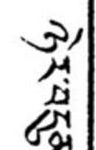ཉེར་བདུན་
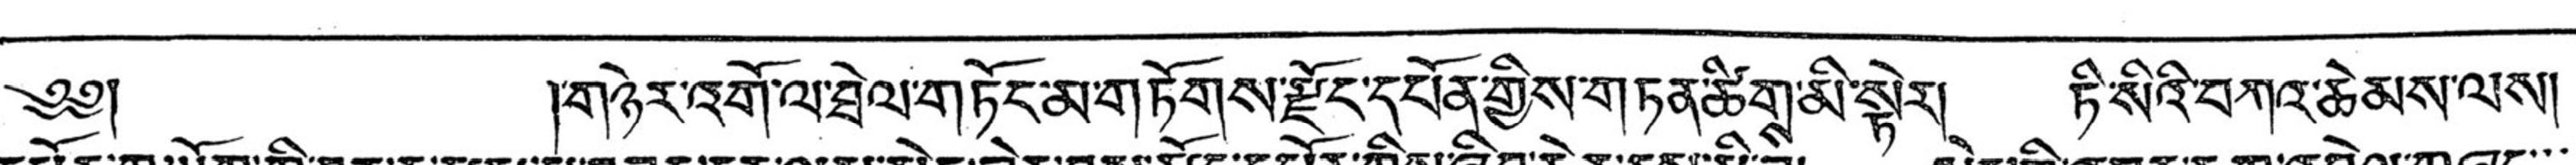༄༅།  །གཉེར་འགོ་ལ་ཐེལ་གཏོང་མ་གཏོགས་རྫོང་དཔོན་གྱིས་གཏན་ཚིགས་མི་སྟེར། ཏི་སིའི་བཀའ་ཆེམས་ལས།
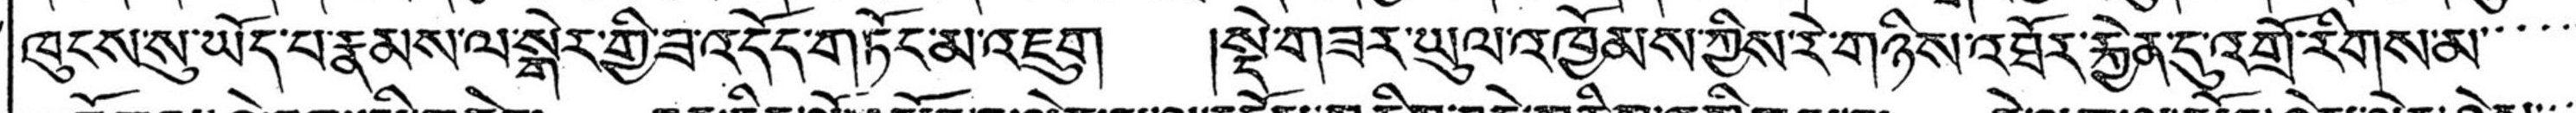ཁུངས་སུ་ཡོད་པ་རྣམས་ལ་སྒེར་གྱི་ཟ་འདོད་གཏོང་མ་འཇུག །སྡེ་གཟར་ཡུལ་འཁྱོམས་ཀྱིས་རེ་གཉིས་འཐོར་རྐྱེན་དུ་འགྲོ་རིགས་མ་་་་་
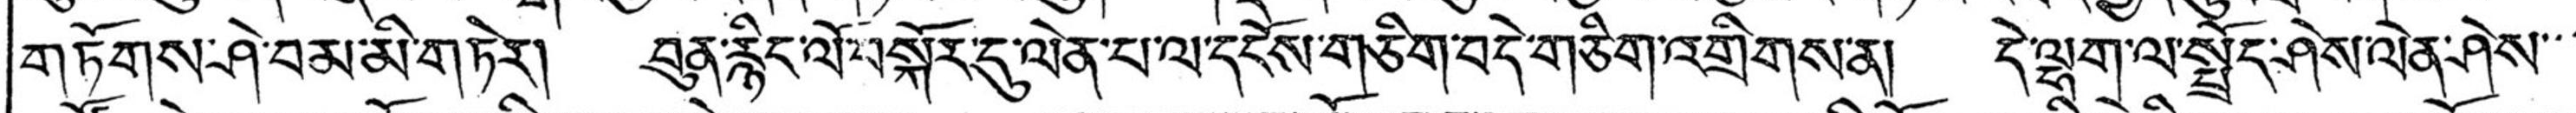གཏོགས་ཤེ་བམ་མི་གཏེར། བུན་རྙིང་ལོ་བསྐོར་དུ་ལེན་པ་ལ་དངོས་གཅིག་བདེ་གཅིག་འགྲིགས་ན། དེ་ལྷག་ལ་སྤྲོད་ཤེས་ལེན་ཤེས་་་་
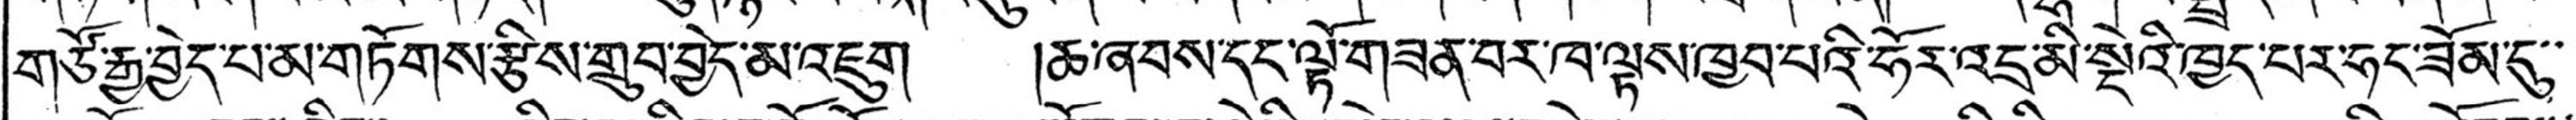གཙོ་རྒྱ་བྱེད་པ་མ་གཏོགས་རྩིས་གྲུབ་བྱེད་མ་འཇུག །ཆ་ཞབས་དང་ལྟོ་གཟན་པར་ཁ་ལྟས་ཁྱབ་པའི་ཧོར་འདྲ་མི་སྡེའི་ཁྱད་པར་ཧང་ཟོམ་དུ་་་
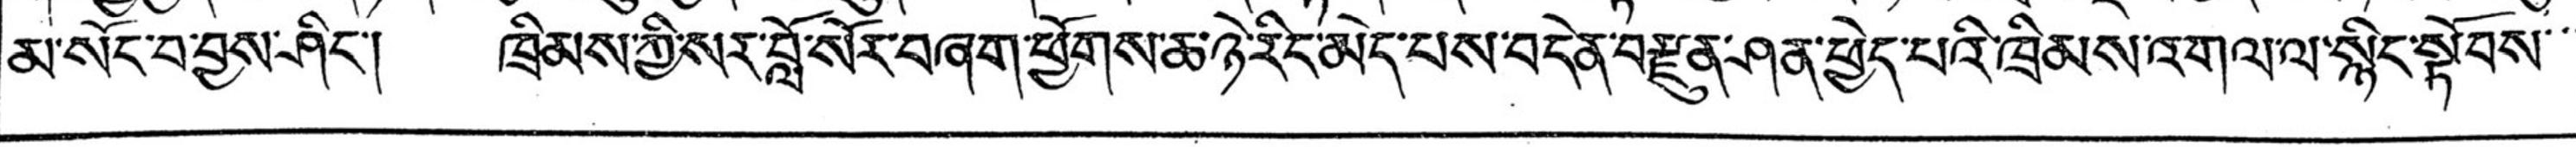མ་སོང་བ་བྱས་ཤིང་། ཁྲིམས་ཀྱི་སར་བློ་སོར་བཞག་ཕྱོགས་ཆ་ཉེ་རིང་མེད་པས་བདེན་བརྫུན་ཤན་ཕྱེད་པའི་ཁྲིམས་འགལ་ལ་སྙིང་སྟོབས་་་
